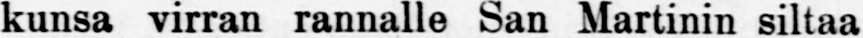kunsa virran rannalle San Martinin siltaa
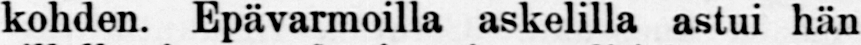kohden. Epävarmoilla askelilla astui hän
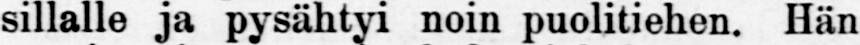sillalle pysähtyi noin puolitiehen. Hän
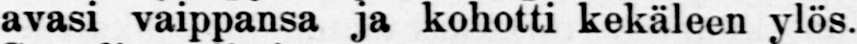avasi vaippansa ja kohotti kekäleen ylös.
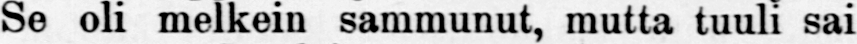Se oli melkein sammunut, mutta tuuli sai
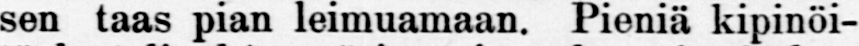sen taas pian leimuamaan. Pieniä kipinöi-
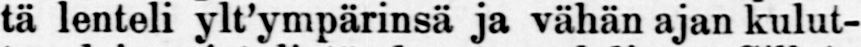tä lenteli ylt ympärinsä ja vähän ajan kulut-
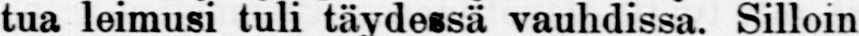tua leimusi tuli täydessä vauhdissa. Silloin
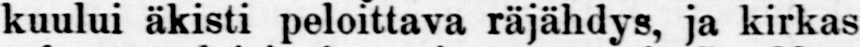kuului äkisti peloittava räjähdyds, ja kirkas
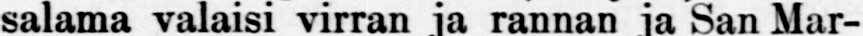salama valaisi virran rannan ja San Mar-
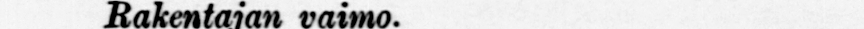Rakentajan vaimo.
